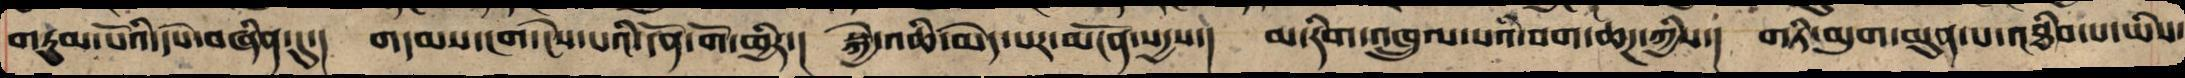གཏུམ་པོའི་དཔེ་བཞིན་དུ་། གདམས་ངག་ངེས་པའི་དོན་གོ་ཕྱིར་། སྐྱེ་འཆི་མེད་པར་མངོན་སདྱས། མ་རིག་འཁྲུལ་པའི་བག་ཆཌ་ཀྱིས་། གཏི་མུག་མུན་པ་འཐིབས་པ་ཡིས་
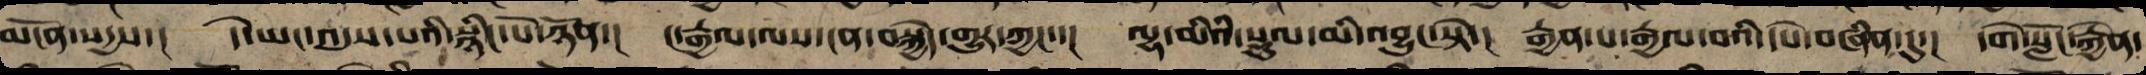མངོན་སདྱས་། དེ་ཡང་འདུས་པའི་སྙིང་པོ་ཉོན་། །་རྒྱལ་ལས་ངན་བསྐྱེད་གྱུར་ཀྱང་་། ལྷ་མིའི་སྡུལ་མི་འབྱུང་སྟེ་། རྒྱན་པོ་རྒྱལ་བའི་དཔེ་བཞིན་དུ་། དགེ་སློང་རྐྱེན་
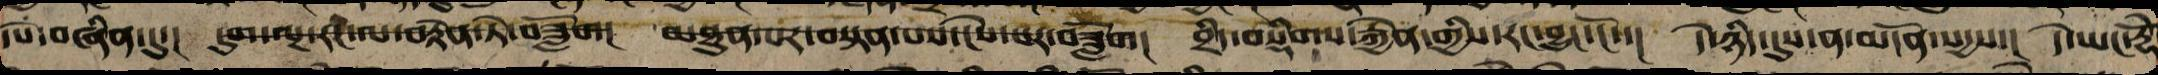དཔེ་བཞིན་དུ་། དུག་ལྔ་རང་ལ་བརྟེན་ཏེ་བཟློག། མཐུན་པར་བསྟན་པས་ངེས་པར་བཟློག། བྲིད་བསྡིགས་རྐྱེན་གྱིས་རང་བྱུང་ངོ་་། དེ་ཉིད་དུས་ན་མངོན་སདྱས། དེ་ཡང་རྡོེ
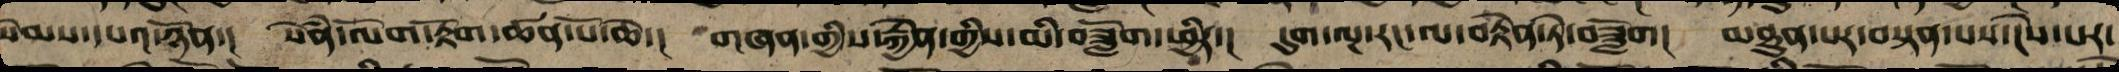སེམས་དཔའ་ཉོན་། སེཾན་ལོག་རྟོག་ཚན་པོ་ཆེ་། གཞན་གྱི་རྐྱེན་གྱིས་མི་བཟློག་ཕྱིར་། དུག་ལྔ་རང་ལ་བརྟེན་ཏེ་བཟློག། མཐུན་པར་བསྟན་པས་ངེས་པར་
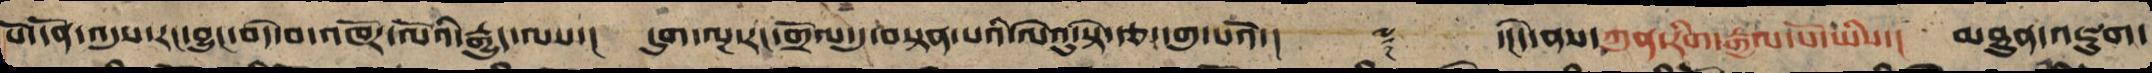པོ་དོན་འདུས་རང་བྱུང་བདེ་བའི་འཁོར་ལོའི་རྒྱུད་ལས་། དུག་ལྔ་རང་གྲོལ་དུ་བསྟན་པའི་ལེའུ་སྟེ་རྩ་དགུ་པའོ་།། ༈ ་།།དེ་ནས་ཀུན་རིག་རྒྱལ་པོ་ཡིས་། མཐུན་འཇུག་
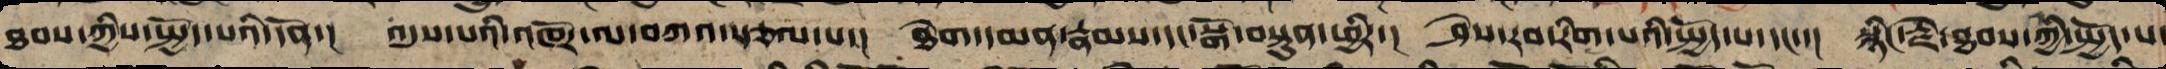ཐབས་ཀྱི་སྤྱོད་པའི་དོན་། འདུས་པའི་འཁོར་ལ་བཀའ་སྩལ་པ་། ཐེག་དམན་རྣམས་དང་སྒོ་བསྟུན་ཕྱིར་། ཤེས་རབ་རིག་པའི་སྤྱོད་པ་དང་་། སྙིང་རྗེ་ཐབས་ཀྱི་སྤྱོད་པ་
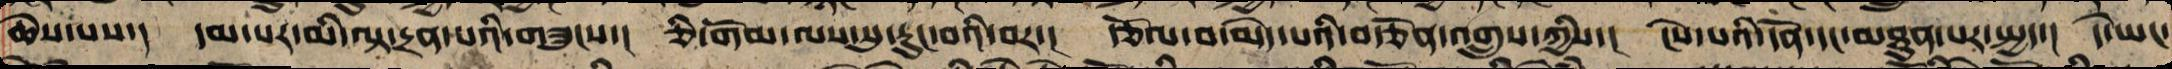ཆེས་པས་། དམ་པར་མི་བལྟ་དྲན་པའི་གཟུངས་། ཅི་གོམ་ལས་སུ་རུང་བའི་བར་། རྩོལ་བ་མེད་པའི་བརྩོན་འགྲུས་ཀྱིས་། ངེས་པའི་དོན་དང་མཐུན་པར་སྤྱད་། དེ་ཡང་
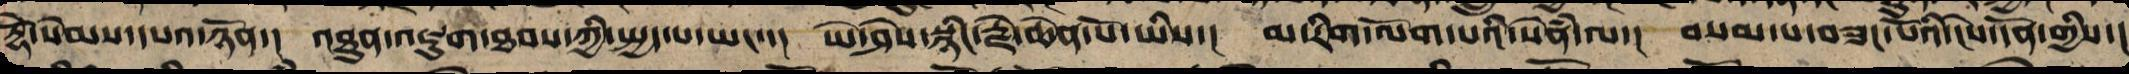རྡོེ་སེམས་དཔའ་ཉོན་། མཐུན་འཇུག་ཐབས་ཀྱི་སྤྱོད་པ་ཡང་་། ཡེ་ཤེས་སྙིང་རྗེ་ཆེན་པོ་ཡིས་། མ་རིག་ལོག་པའི་སེཾན་ལ་། བསམ་པ་བཟང་པོའི་ངེས་དོན་གྱིས་།
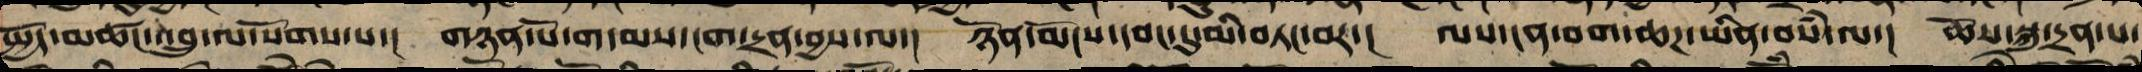སྤྱོད་མཚང་འབྲུ་ལ་སོགས་པར་། གཉན་པོ་གདམས་ངག་དྲན་བྱས་ལ་། ཉོན་མོངས་དབང་དུ་མི་གཏང་བར་། ལས་ངན་བག་ཆཌ་ཡིན་བསཾ་ལ་། ཆོས་སྐུ་དྲན་པ་
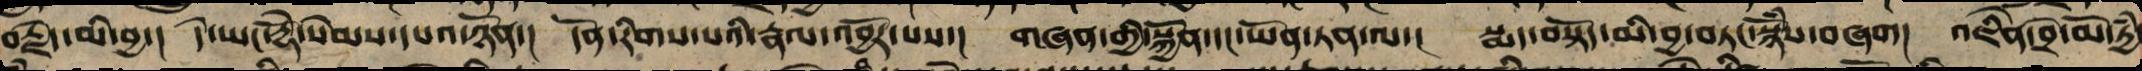བརྗེད་མི་བྱ་། དེ་ཡང་རྡོེ་སེམས་དཔའ་ཉོན་། དོན་དམ་རེག་པའི་རྣལ་འབྱོར་པས་། གཞན་གྱི་སྐྱོན་དང་ཡོན་ཏན་ལ་། སྨད་བསྟོད་མི་བྱ་བཏང་སྙོཾས་་བཞག། འཇིག་རྟེན་དྲེ་མོའི་ཏྱཾ
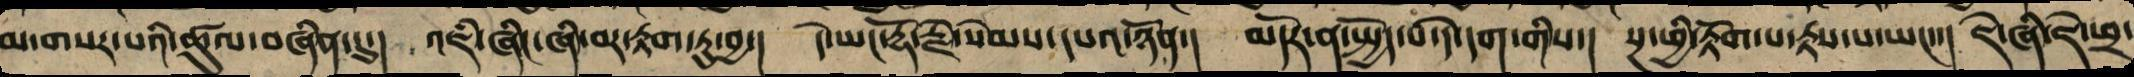མ་གསར་པའི་ཚུལ་བཞིན་དུ་། འཇཾ་ཞིང་ཞི་བར་རྟག་ཏུ་བྱ་། དེ་ཡང་རྡོ་རྗེ་སེམས་དཔའ་ཉོན་། མདོར་ན་སྤྱོད་པ་དེ་དག་གིས་། སྔ་ཕྱི་རྟོག་པ་རྟས་པ་ཡང་་། ཇེ་ཞི་ཇེ་ཕྲ་
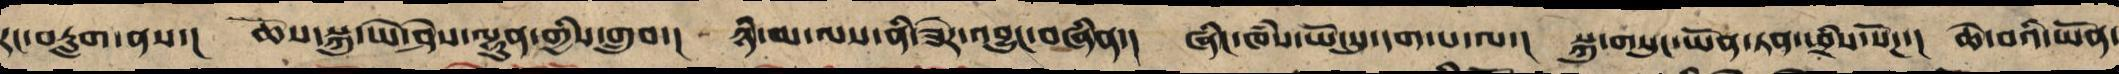རང་བརླག་ནས་། ཆོས་སྐུ་ཡེ་ཤེས་ལྷུན་གྱིས་གྲུབ་། ཉི་མ་ལ་ནི་ཟེར་འབྱུང་བཞིན་། ཞིང་ཁཾས་ཡོངས་སུ་དག་པ་ལ་། སྐུ་གསུང་ཡོན་ཏན་ཕྲིས་སོཌ་། ཆེ་བའི་ཡོན་
